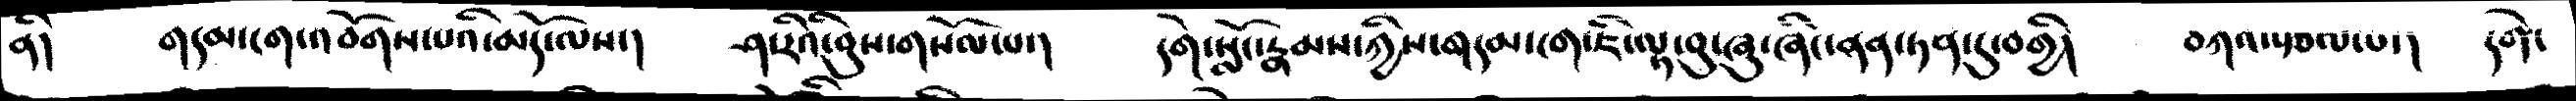ནི།  གདམ་ངག་འབོགས་པའི་མདོ་ལས་།   ཤ་རིའི་བུས་གསོལ་པ་།   དགེ་སློང་རྣམས་ཀྱིས་གདམ་ངག་ཇི་ལྟ་བུ་ཞུ་ཞིང་ནན་ཏན་དུ་བགྱི།  བཀའ་སྩལ་པ་།  དགེ་
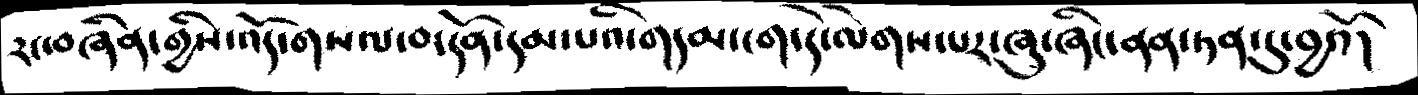རང་བཞིན་གྱིས་འོད་གསལ་བ་དོན་དམ་པའི་གདམ་ངག་དེ་ལེགས་པར་ཞུ་ཞིང་ནན་ཏན་དུ་བྱའོ།
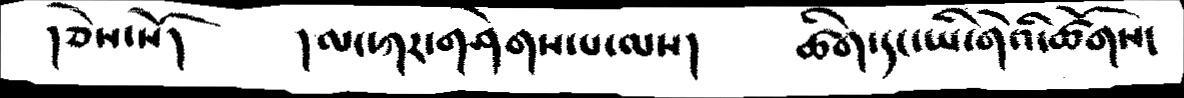།ཅེས་སོ།   །ལང་ཀར་གཤེགས་པ་ལས།   ཚིག་དང་ཡི་གེའི་ཚོགས་
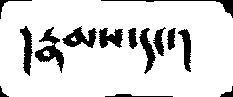།རྣམས་དང་།
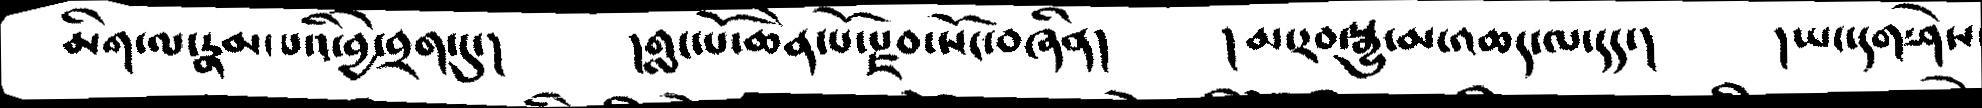མིག་ལ་རྣམ་པའི་བྱེ་བྲག་དུ་།    །གླང་པོ་ཆེན་པོ་སྫབ་སོང་བཞིན།   །མ་རབ་སྒྱུ་མ་འཆད་ལ་དད་།  །ཡང་དག་ཤེས
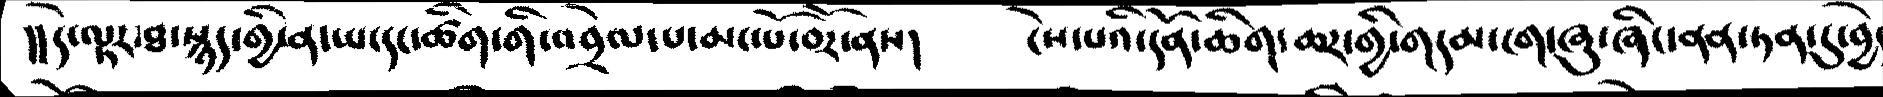།།དེ་ལྟར་ཐ་སྙད་གྱི་ན་ཡང་དང་ཚིག་གི་འབྲེལ་པ་མང་པོ་བོར་ནས།   ངེས་པའི་དོན་ཆིག་ཆར་གྱི་གདམ་ངག་ཞུ་ཞིང་ནན་ཏན་དུ་བྱེ
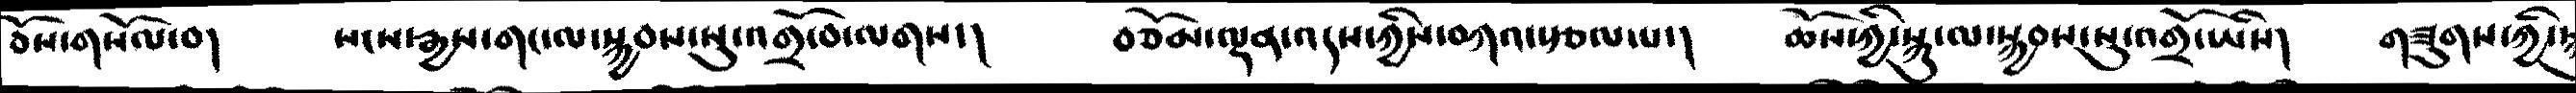བསོ་གསོལ་བ།     སངས་རྒྱས་གང་ལ་སྐྱབས་སུ་འགྲོ་བ་ལགས་།     བཅོམ་ལྡན་འདས་ཀྱིས་བཀའ་སྩལ་པ་།     ཆོས་ཀྱི་སྐུ་ལ་སྐྱབས་སུ་འགྲོ་ཡིས།  གཟུགས་ཀྱི་
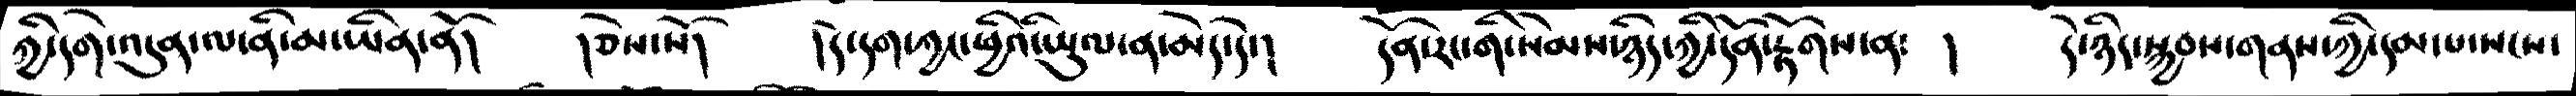ཀྱི་དགེ་འདུན་པ་ནི་མ་ཡིན་ནོ།   །ཅེས་སོ།  །དེ་དག་ཀྱང་ཕྱིའི་ཡུལ་ན་མེད་དེ་།  དོན་རང་གི་སེམས་ཉིད་ཀྱི་དོན་རྟོགས་ན་  །   དེ་ཉིད་སྐྱབས་གནས་ཀྱི་དམ་པ་དངས་
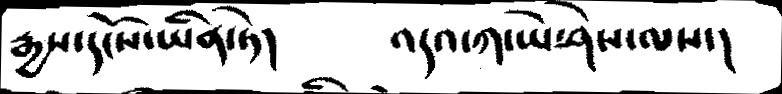རྒྱས་དངོས་ཡིན་ཏེ།    འདའ་ཀ་ཡེ་ཤེས་ལས་།
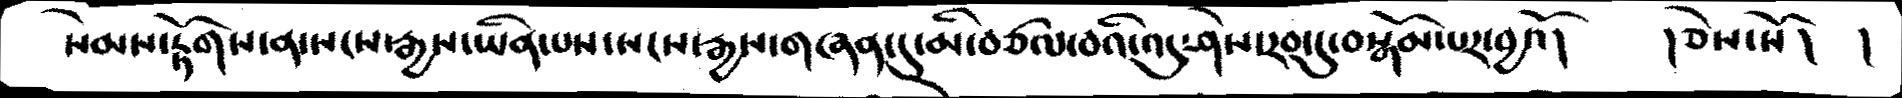སེམས་རྟོགས་ནས་སངས་རྒྱས་ཡིན་པས་སངས་རྒྱས་གཞན་དུ་མི་བཙལ་བའི་འདུ་ཤེས་རབ་དུ་བསྒོམ་པར་བྱའོ།   །ཅེས་སོ།  །
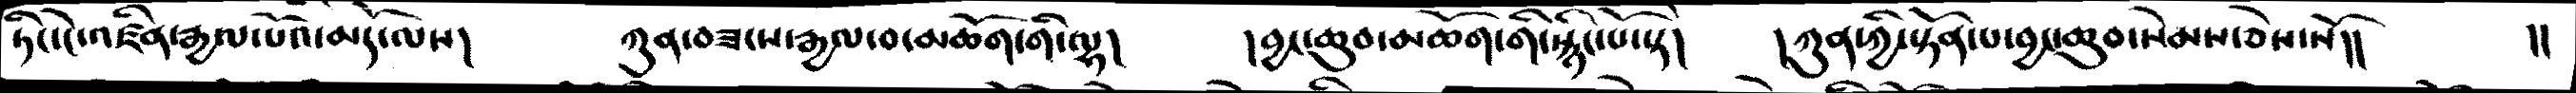ཏིང་ངེ་འཛིན་རྒྱལ་པོའ་མདོ་ལས།   ཀུན་བཟངས་རྒྱལ་བ་མཆོག་གི་ལྷ།  །བྱང་ཆུབ་མཆོག་གི་སྙིང་པོ་སྟེ།  །ཀུན་ཀྱི་སྟོན་པ་བྱང་ཆུབ་སེམས་ཅེས་སོ།།      །།
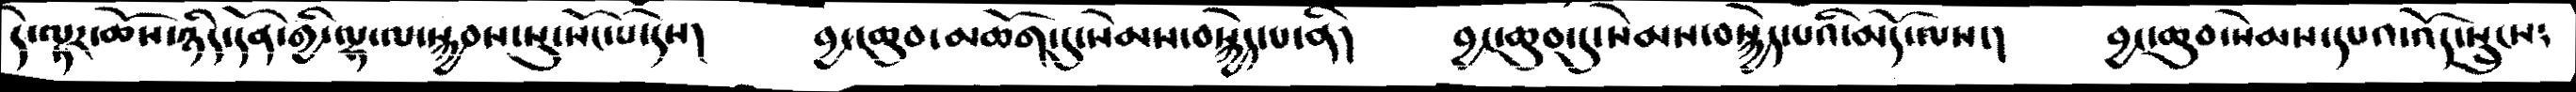དེ་ལྟར་ཆོས་ཉིད་དོན་གྱི་ལྷ་ལ་སྐྱབས་སུ་སོང་པ་དེས།   བྱང་ཆུབ་མཆོག་དུ་སེམས་བསྐྱེད་པ་ནི།  བྱང་ཆུབ་དུ་སེམས་བསྐྱེད་པའི་མདོ་ལས་།  བྱང་ཆུབ་སེམས་དཔའ་འོད་སྲུངས༴
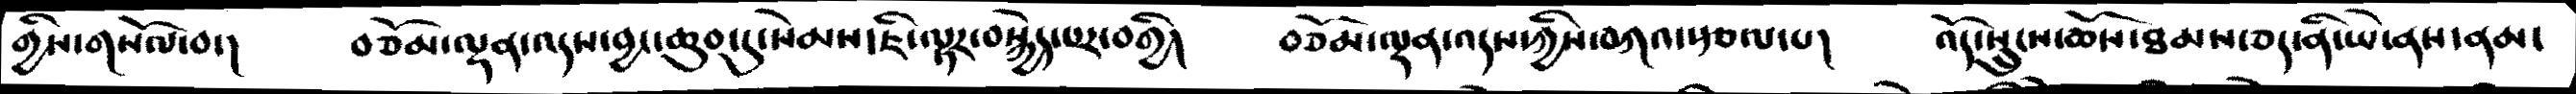གྱིས་གསོལ་བ་།  བཅོམ་ལྡན་འདས་བྱང་ཆུབ་སེམས་ཇི་ལྟར་བསྐྱེད་པར་བགྱི།   བཅོམ་ལྡན་འདས་ཀྱིས་བཀའ་སྩལ་པ།  འོད་སྲུངས་ཆོས་ཐམས་ཅད་ནི་ཡེ་ནས་ནམ་
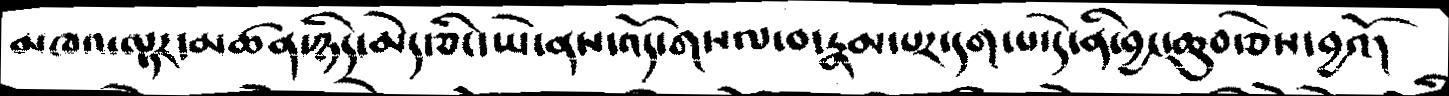མཁའ་ལྟར་མཚན་ཉིད་མེད་ཅིང་ཡེ་ནས་འོད་གསལ་བ་རྣམ་པར་དག་པ་དེ་ནི་བྱང་ཆུབ་ཅེས་བྱའོ།
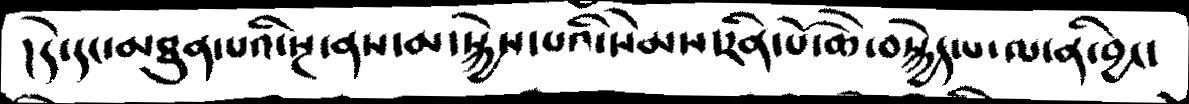།དེ་དང་མཐུན་པའི་སྔ་ནས་མ་སྐྱེས་པའི་སེམས་རིན་པོ་ཆེ་བསྐྱེད་པ་ལ་ནི་བྱང་
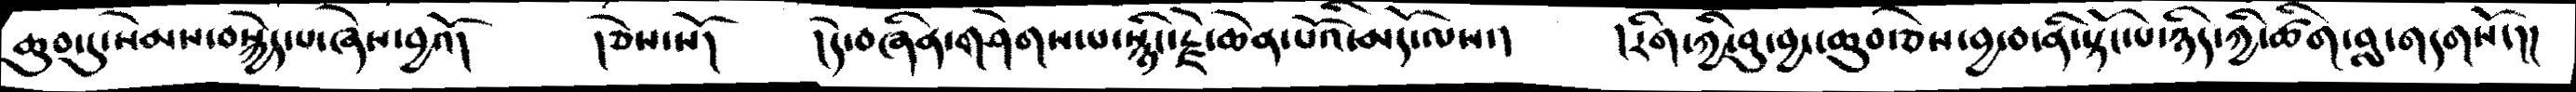ཆུབ་དུ་སེམས་བསྐྱེད་པ་ཞེས་བྱའོ།  །ཅེས་སོ།   །དེ་བཞིན་གཤེགས་པ་སྙིང་རྗེ་ཆེན་པོའི་མདོ་ལས་།  །རིག་ཀྱི་བུ་བྱང་ཆུས་ཅེས་བྱ་བ་ནི་སྟོང་པ་ཉིད་ཀྱི་ཚིག་བླ་གདགསོ་།།
